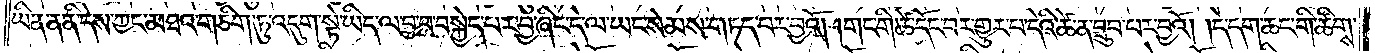ཡིན་ན་ནི་དེས་ཀྱང་མཐའ་གཅིག་ཏུ་འདུག་སྟེ་ཡིད་ལ་བྱ་བ་བསྐྱེད་པར་བྱ་ཞིང་དེ་ལ་ཡང་སེམས་གཏད་པར་བྱའོ། །གང་གི་ཚེ་དོང་བར་གྱུར་པ་དེའི་ཚེ་ན་བྲུབ་པར་བྱའོ། །དེ་དག་ཆང་གི་ཚིགས་
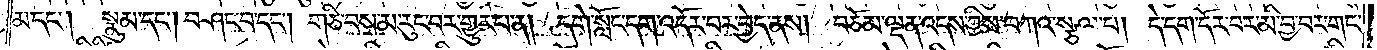མ་དང༌། སྣུམ་དེང༌། བཤང་བ་དང༌། གཅི་བས་མ་རུང་བར་གྱུར་བ་ན། དགེ་སློང་དག་འདོར་བར་བྱེད་ནས། བཅོམ་ལྡན་འདས་ཀྱིས་བཀའ་སྩལ་པ། དེ་དག་དོར་བར་མི་བྱ་བར་གང་
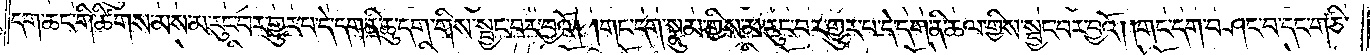དག་ཆང་གི་ཚིགས་མ་ས་མ་རུང་བར་གྱུར་པ་དེ་དག་ནི་ཆུ་དག་གིས་སྦྱང་བར་བྱའོ། །གང་དག་སྣུམ་གྱིས་མ་རུང་བར་གྱུར་པ་དེ་དག་ནི་ཆལ་གྱིས་སྦྱང་བར་བྱའོ། །གང་དག་བཤང་བ་དང་གཅི་
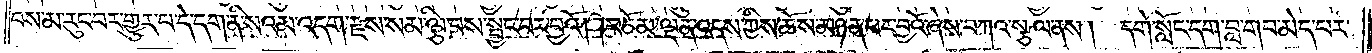བས་མ་རུང་བར་གྱུར་པ་དེ་དག་ནི་སའམ་འདག་རྫས་སམ་ལྕི་བས་སྦྱང་བར་བྱའོ། །བཅོམ་ལྡན་འདས་ཀྱིས་ཆོས་མཉན་པར་བྱའོ་ཞེས་བཀའ་སྩལ་ནས། དགེ་སློང་དག་བླ་གབ་མེད་པར་
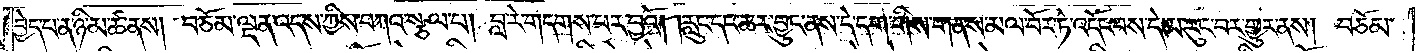བྱེད་པ་ན་ཉི་མ་ཚ་ནས། བཅོམ་ལྡན་འདས་ཀྱིས་བཀའ་སྩལ་པ། བླ་རེ་གདགས་པར་བྱའོ། །རླུང་དང་ཆར་བྱུང་ནས་དེ་དག་གིས་གནས་མལ་བོར་ཏེ་འདོང་བས་དེ་མ་རུང་བར་གྱུར་ནས། བཅོམ་
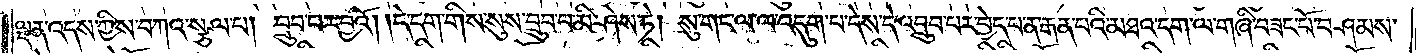ལྡན་འདས་ཀྱིས་བཀའ་སྩལ་པ། བྲུབ་པར་བྱའོ། །དེ་དག་གིས་སུས་བྲུབ་པ་མི་ཤེས་ཏེ། སུ་གང་ལ་ལ་འདུག་པ་དེས་དེ་འབྲུབ་པར་བྱེད་པ་ན་རྒན་པའི་མཐའ་དག་ལ་གཞི་བཟང་པོ་བཤམས་
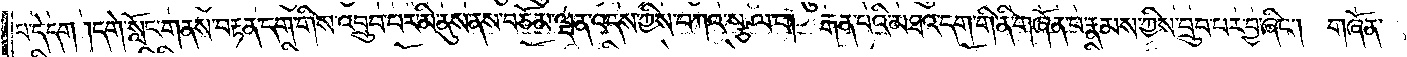པ་དེ་དག །དགེ་སློང་གནས་བརྟན་དག་གིས་འབྲུབ་པར་མི་ནུས་ནས་བཅོམ་ལྡན་འདས་ཀྱིས་བཀའ་སྩལ་པ། རྒན་པའི་མཐའ་དག་གི་ནི་གཞོན་པ་རྣམས་ཀྱིས་བྲུབ་པར་བྱ་ཞིང༌། གཞོན་
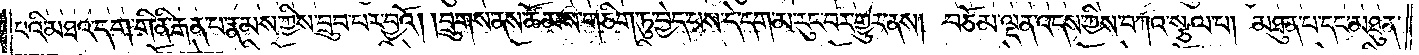པའི་མཐའ་དག་གི་ནི་རྒན་པ་རྣམས་ཀྱིས་བྲུབ་པར་བྱའོ། །བྲུགས་ནས་ཚོམས་གཅིག་ཏུ་བྱེད་པས་དེ་དག་མ་རུང་བར་གྱུར་ནས། བཅོམ་ལྡན་འདས་ཀྱིས་བཀའ་སྩལ་པ། མཐུན་པ་དང་མཐུན་
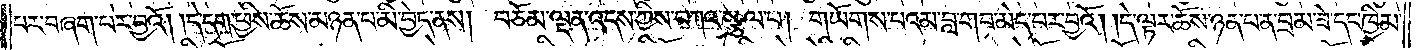པར་བཞག་པར་བྱའོ། །དེ་དག་ཕྱིས་ཆོས་མཉན་པ་མི་བྱེད་ནས། བཅོམ་ལྡན་འདས་ཀྱིས་བཀའ་སྩལ་པ། གཡོགས་པའམ་བླ་གབ་མེད་པར་བྱའོ། །དེ་ལྟར་ཆོས་ཉན་པ་ན་བྲམ་ཟེ་དང་ཁྱིམ་
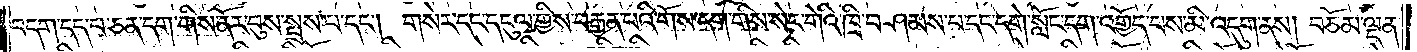བདག་དད་པ་ཅན་དག་གིས་ནོར་བུས་སྤྲས་པ་དང༌། གསེར་དང་དངུལ་གྱིས་བརྒྱན་པའི་གོས་དག་གིས་སེང་གེའི་ཁྲི་བཤམས་པ་དང་དགེ་སློང་དག་འགྱོད་པས་མི་འདུག་ནས། བཅོམ་ལྡན་
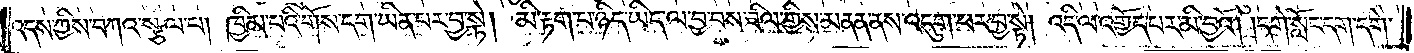འདས་ཀྱིས་བཀའ་སྩལ་པ། ཁྱིམ་པའི་གོས་དག་ཡིན་པར་བྱ་སྟེ། མི་རྟག་པ་ཉིད་ཡིད་ལ་བྱ་བས་ཟིལ་གྱིས་མནན་ནས་འདུག་པར་བྱ་སྟེ། འདི་ལ་འགྱོད་པར་མི་བྱའོ། །དགེ་སློང་དག་དགེ་
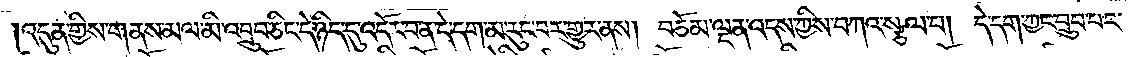འདུན་གྱིས་གནས་མལ་མི་འབྲུབ་ཅིང་དེ་ཉིད་དུ་འདོར་བ་ན་དེ་དག་མ་རུང་བར་གྱུར་ནས། བཅོམ་ལྡན་འདས་ཀྱིས་བཀའ་སྩལ་པ། དེ་དག་ཀྱང་བྲུབ་པར་
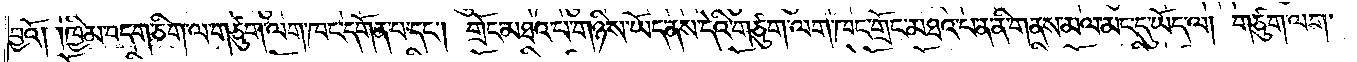བྱའོ། །ཁྱིམ་བདག་ཅིག་ལ་གཙུག་ལག་ཁང་དགོན་པ་དང༌། གྲོང་མཐའ་བ་གཉིས་ཡོད་ནས་དེའི་གཙུག་ལག་ཁང་གྲོང་མཐའ་པ་ན་ནི་གནས་མལ་མང་དུ་ཡོད་ལ། གཙུག་ལག་
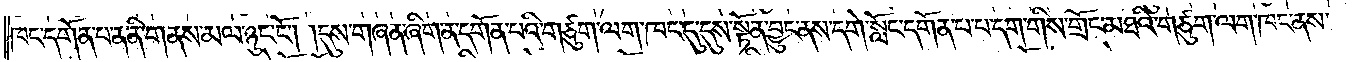ཁང་དགོན་པ་ན་ནི་གནས་མལ་ཉུང་ངོ༌། །དུས་གཞན་ཞིག་ན་དགོན་པའི་གཙུག་ལག་ཁང་དུ་དུས་སྟོན་བྱུང་ནས་དགེ་སློང་དགོན་པ་བདག་གི་གྲོང་མཐའི་གཙུག་ལག་ཁང་ནས་
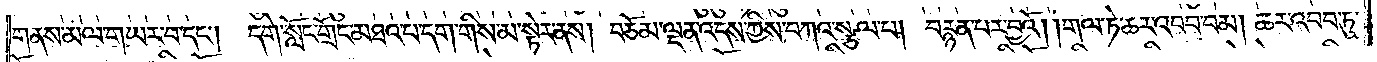གནས་མལ་གཡར་བ་དང༌། དགེ་སློང་གྲོང་མཐའ་པ་དག་གིས་མ་སྟེར་ནས། བཅོམ་ལྡན་འདས་ཀྱིས་བཀའ་སྩལ་པ། བརྙན་པར་བྱའོ། །གལ་ཏེ་ཆར་འབབ་བམ། ཆར་འབབ་ཏུ་
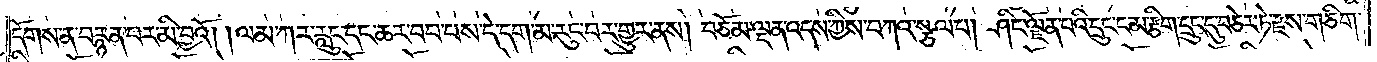དོགས་ན་བརྙན་པར་མི་བྱའོ། ལམ་ཀར་རླུང་དང་ཆར་བབ་པས་དེ་དག་མ་རུང་བར་གྱུར་ནས། བཅོམ་ལྡན་འདས་ཀྱིས་བཀའ་སྩལ་པ། ཤིང་ལྗོན་པའི་དྲུང་ངམ་རྩིག་དྲུང་དུ་བཅེར་ཏེ་རྫས་གཅིག་
